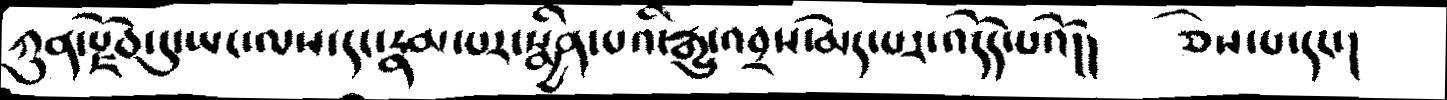ཀུན་རྫོབ་དུ་ཡང་ལས་དང་རྣམ་པར་སྨྱིན་པའི་རྒྱུ་འབྲས་མེད་པར་འདོད་པའོ།།  ཅེས་པ་དང་།
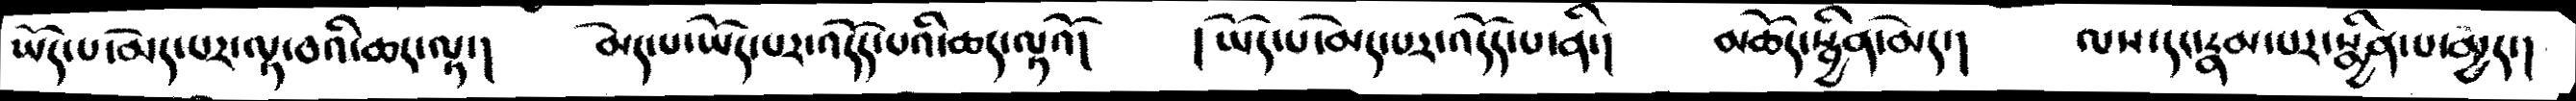ཡོད་པ་མེད་པར་ལྟ་བའི་ཆད་ལྟ་།  མེད་པ་ཡོད་པར་འདོད་པའི་ཆད་ལྟའོ།  །ཡོད་པ་མེད་པར་འདོད་པ་ནི་།  མཆོད་སྦྱིན་མེད་།  ལས་དང་རྣམ་པར་སྨྱིན་པ་མྱེད་།
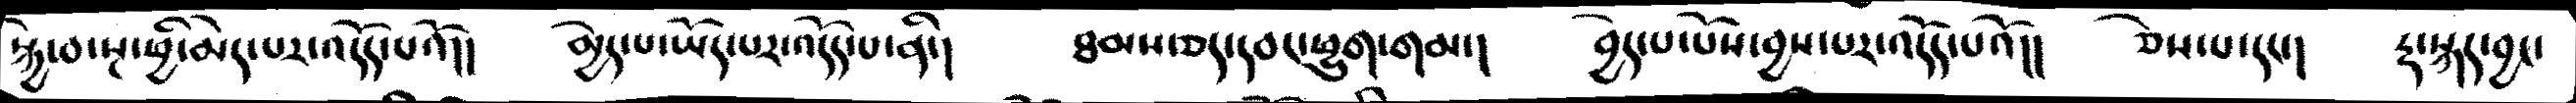སྐྱེ་བ་སྔ་ཕྱི་མེད་པར་འདོད་པའོ།།   མྱེད་པ་ཡོད་པར་འདོད་པ་ནི་།  ཐམས་ཅད་དབང་ཕྱུག་གམ་།  བྱེད་པ་པོས་བྱས་པར་འདོད་པའོ།།  ཅེས་པ་དང་།  རྟ་སྐད་བྱང་
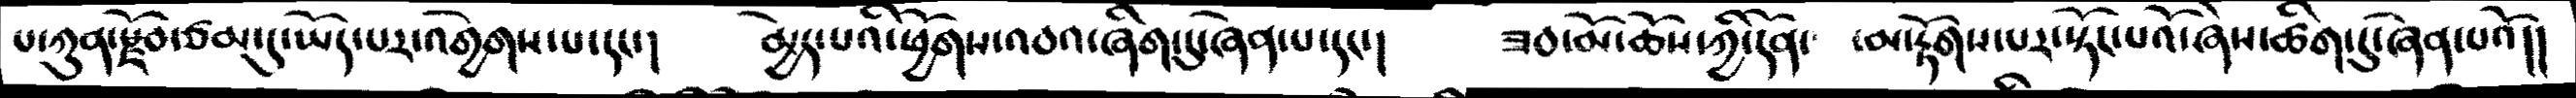པ་ཀུན་རྫོབ་ཙམ་དུ་ཡོད་པར་འགྱེགས་པ་དང་།   མྱེད་པའི་ཕྱོགས་འབའ་ཞིག་དུ་ཞེན་པ་དང་།  ཟབ་མོ་ཆོས་ཀྱི་དོན་  ་མ་རྟོགས་པར་སྟོང་པའོ་ཞེས་ཚིག་དུ་ཞེན་པའོ།།
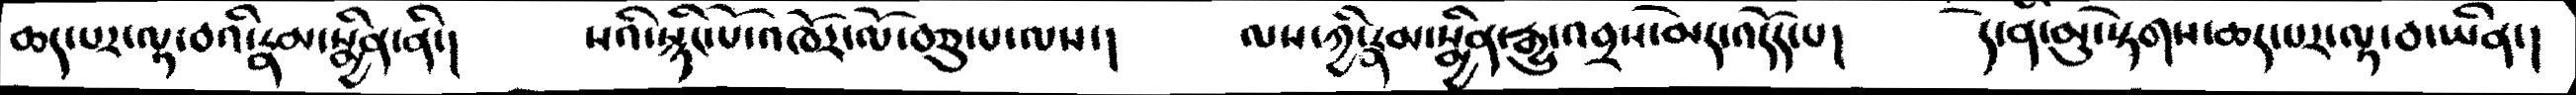ཆད་པར་ལྟ་བའི་རྣམ་སྨྱིན་ནི་།   སའི་སྙིང་པོ་འཁོར་ལོ་བཅུ་པ་ལས་། ལས་ཀྱི་རྣམ་སྨྱིན་རྒྱུ་འབྲས་མེད་འདོད་པ།  དེ་ནི་མུ་སྟེགས་ཆད་པར་ལྟ་བ་ཡིན་།
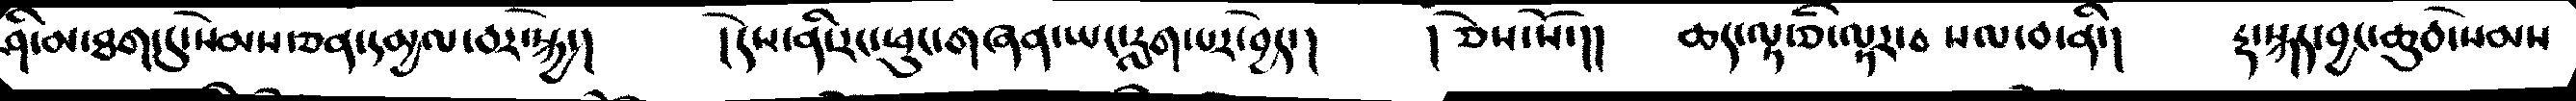ཤི་མ་ཐག་དུ་སེམས་ཅན་དམྱལ་བར་སྐྱེ་།  །དེས་ནི་རང་ཕུང་གཞན་ཡང་རླག་པར་བྱེད་།  །ཅེས་སོ་།།   ཆད་ལྟ་ཅི་ལྟར་བསལ་བ་ནི་།  རྡ་སྐད་བྱང་ཆུབ་སེམས
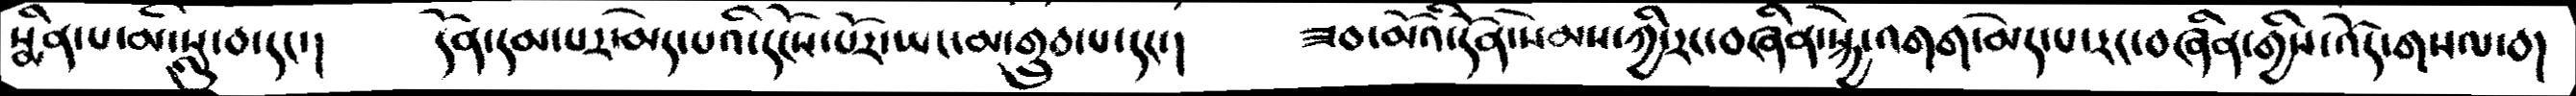སྨིན་པ་མི་སླུ་བ་དང་།   དོན་དམ་པར་མེད་པའི་དངོས་པོར་ཡང་མ་གྲུབ་དང་།   ཟབ་མོའི་དོན་སེམས་ཀྱི་རང་བཞིན་སྐྱེ་འགག་མེད་པ་རང་བཞིན་གྱིས་འོད་གསལ་བ།
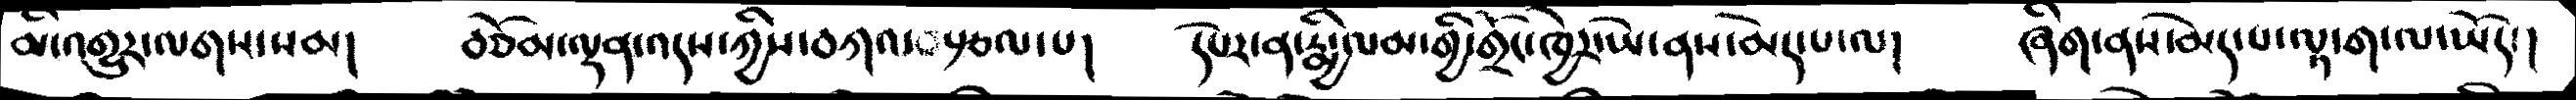མི་འགྱུར་ལགས་སམ།      བཅོམ་ལྡན་འདས་ཀྱིས་བཀའ་བརྩལ་པ།     དཔེར་ན་རྨྱི་ལམ་གྱི་གྲོང་ཁྱེར་ཡེ་ནས་མེད་པ་ལ།     ཞིག་ནས་མེད་པ་ལྟ་ག་ལ་ཡོད་།
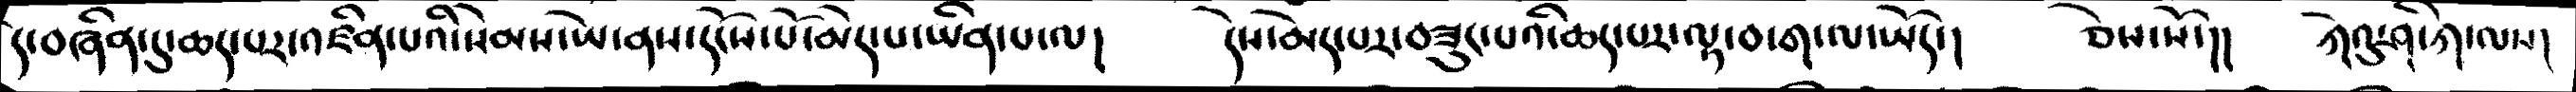དེ་བཞིན་དུ་ཆད་པར་འཛིན་པའི་སེམས་ཡེ་ནས་དངོས་པོ་མེད་པ་ཡིན་པ་ལ།     དེས་མེད་པར་བཟུང་པའི་ཆད་པར་ལྟ་བ་ག་ལ་ཡོད་།   ཅེས་སོ་།།   ཀེའུ་ཤི་ཀ་ལས།
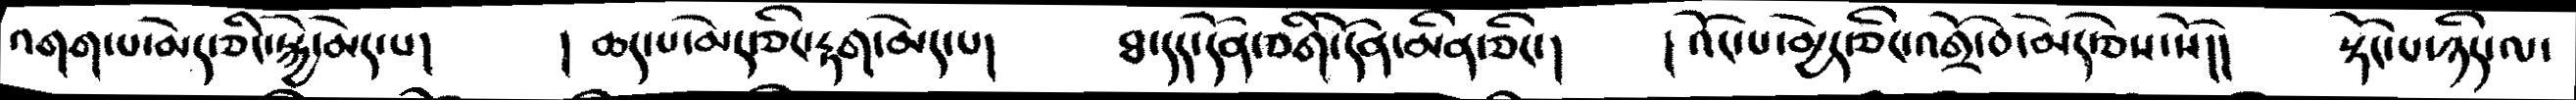འགག་པ་མེད་ཅིང་སྐྱེ་མེད་པ།   ། ཆད་པ་མེད་ཅིང་རྟག་མེད་པ།      ཐ་དད་དོན་ཅིག་དོན་མིན་ཅིང་།        །  འོང་པ་མྱེད་ཅིང་འགྲོ་བ་མེད་ཅེས་སོ།།      སྟོང་པ་ཉིད་ལ་
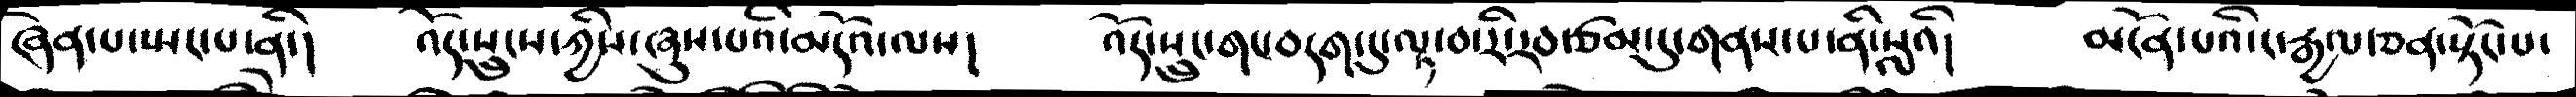ཞེན་པ་སྤང་པ་ནི་།    འོད་སྲུངས་ཀྱིས་ཞུས་པའི་མདོའ་ལས།     འོད་སྲུང་གང་བདག་དུ་ལྟ་བ་རི་རབ་ཙམ་དུ་གནས་པ་ནི་སླའི།      མངོན་པའི་ང་རྒྱལ་ཅན་སྟོང་པ་
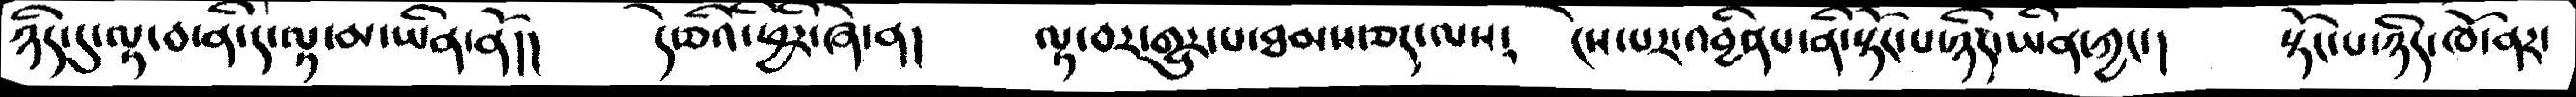ཉིད་དུ་ལྟ་བ་ནི་ད་ལྟ་མ་ཡིན་ནོ།།     དེ་ཅིའི་ཕྱིར་ཞེ་ན།     ལྟ་བར་གྱུར་པ་ཐམས་ཅད་ལས་      ངེས་པར་འབྱིན་པ་ནི་སྟོང་པ་ཉིད་ཡིན་ཀྱང་།   སྟོང་པ་ཉིད་ཁོ་ནར་
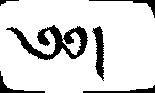༄༅།
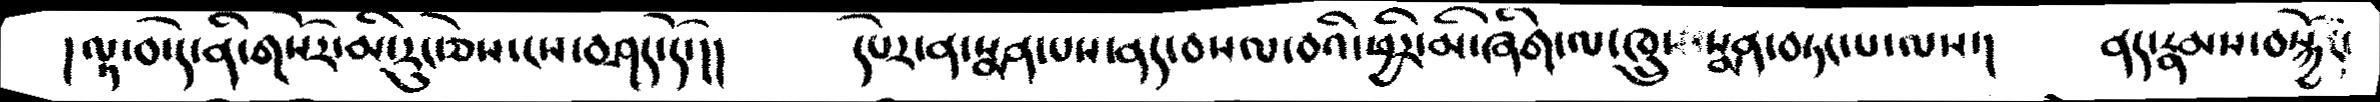།ལྟ་བ་དེ་ནི་གསོར་མི་རུང་ཅེས་ངས་བཤད་དོ་།   དེཔར་ན་སྨན་པས་ནད་བསལ་བའི་ཕྱིར་མི་ཞིག་ལ་ཁྲུས་སྨན་བཏང་པ་ལས་།  ནད་རྣམས་བསྐྱོད་
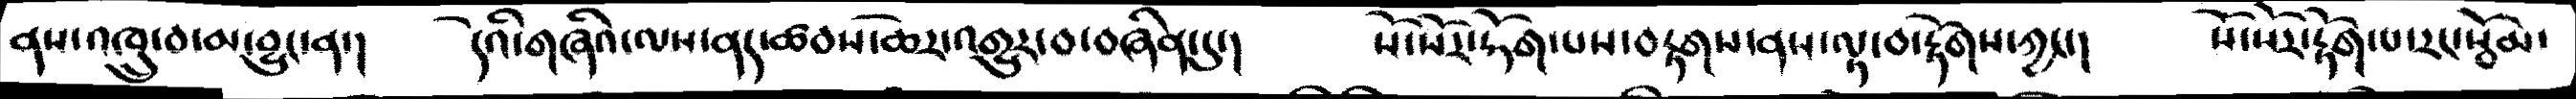ནས་འཁྲུ་བ་མ་བྱུང་ན་།  དེའི་གཞིའི་ལས་ནད་ཚབས་ཆེར་འགྱུར་བ་བཞིན་དུ་།  སོ་སོར་རྟོགས་ནས་ལྟ་བ་རྟོགས་ཀྱང་།  སོ་སོར་རྟོག་པ་རང་སྦོམ་
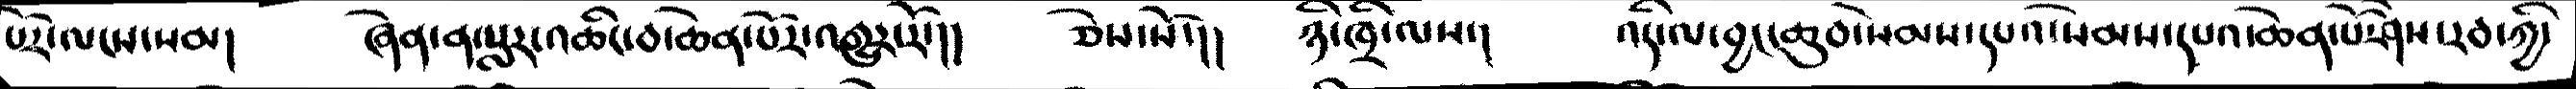པོར་ལངས་སམ།  ཞེན་ན་སླར་འཆིང་བ་ཆེན་པོར་འགྱུར་རོ་།།  ཅེས་སོ་།།  ཉི་ཁྲི་ལས་།  འདི་ལ་བྱང་ཆུབ་སེམས་དཔའ་སེམས་དཔའ་ཆེན་པོ་ཤེས་རབ་ཀྱི་
